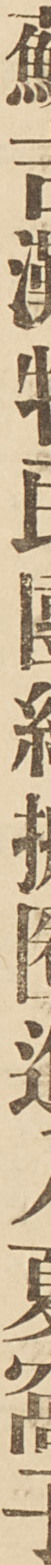蘇吉灘牧民團結搬遷進入夏窩子
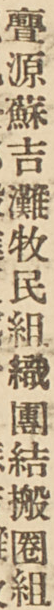亹源蘇吉灘牧民組織團結搬圈組
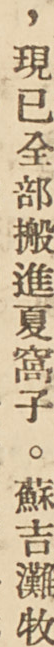，現已全部搬進夏窩子。蘇吉灘牧
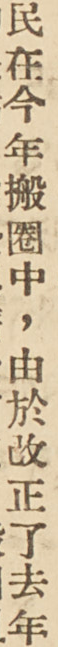民在今年搬圈中，由於改正了去年
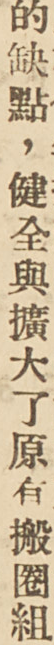的缺點，健全與擴大了原有搬圈組
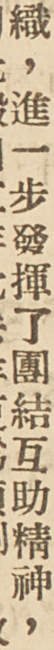織，進一步發揮了團結互助精神，
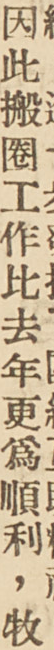因此搬圈工作比去年更爲順利，牧
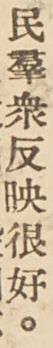民羣衆反應很好。
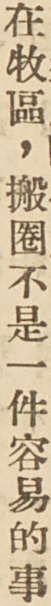在牧區，搬圈不是一件容易的事
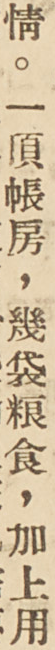情。一頂帳房，幾袋粮食，加上用
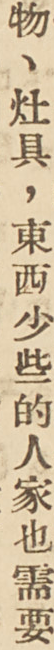物、灶具，東西少些的人家也需要
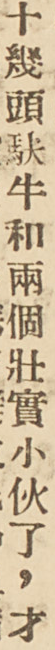十幾頭䭾牛和兩個壯實小伙了，才
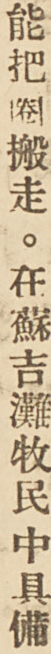能把圈搬走。在蘇吉灘牧民中具備
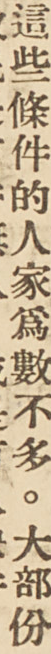這些條件的人家爲數不多。大部分
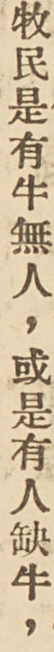牧民是有牛無人，或是有人缺牛，
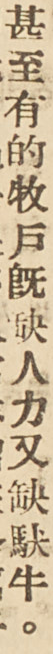甚至有的牧戶既缺人力又缺䭾牛。
